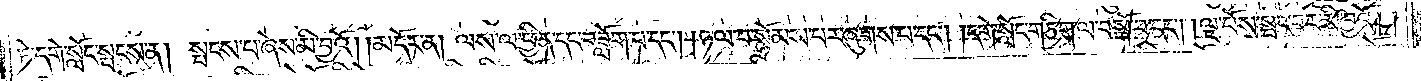ཏེ་དགེ་སློང་སྤངས་ན། སྤངས་པ་ཞེས་མི་བྱའོ། །མདོར་ན། ལས་ལ་ཕྱིན་དང་བཟློག་པ་དང༌། །ཉལ་བ་སྙེམས་པར་ཞུགས་པ་དང༌། །དགེ་སློང་གཅིག་ལ་བསྒོ་བ་དང༌། །ལྔ་པོས་སྤང་བར་མི་བྱའོ། །
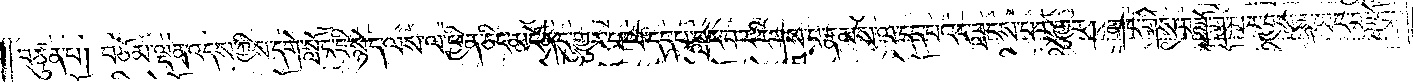བཙུན་པ། བཅོམ་ལྡན་འདས་ཀྱིས་དགེ་སློང་ཇི་སྙེད་ལས་ལ་ཕྱིན་ཅིང་མངོན་དུ་གྱུར་པ་ལ་དད་པ་བླང་བར་རིགས་པར་རྣམས་ལ་དད་པའང་བླངས་པར་གྱུར། གང་གིས་བཟློག་པར་བྱས་ན་ཡང་བཟློག་
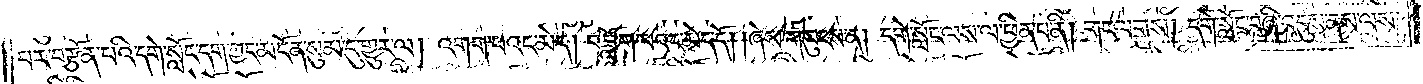པར་བརྩོན་པའི་དགེ་སློང་དག་ཀྱང་མངོན་གསུམ་དུ་གྱུར་ལ། འགག་པའང་མེད། བཟློག་པའང་མེད་དོ། །ཞེས་གསུངས་ན། དགེ་སློང་ལས་ལ་ཕྱིན་པ་ནི། གང་ལགས། དགེ་སློང་བཞི་འདུས་ནས་ལས་
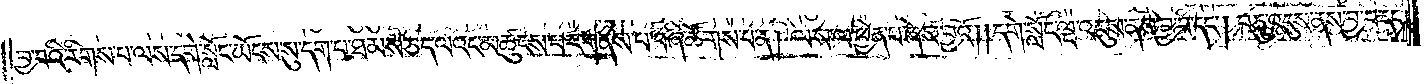བྱ་བའི་རིགས་པ་ལས་དགེ་སློང་ཡོངས་སུ་དག་པ་ཐམས་ཅད་ལའང་མཚུངས་པར་གནས་པ་བཞི་ཚོགས་པ་ན། ལས་ལ་ཕྱིན་པ་ཞེས་བྱའོ། །དགེ་སློང་ལྔ་འདུས་ནས་བྱ་བ་དང༌། བཅུ་འདུས་ནས་བྱ་བ་དང༌།
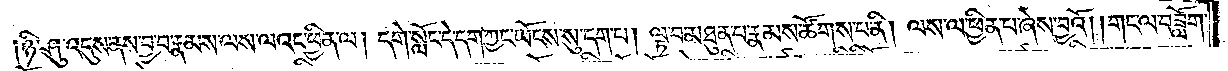ཉི་ཤུ་འདུས་ནས་བྱ་བ་རྣམས་ལས་ལའང་ཕྱིན་ལ། དགེ་སློང་དེ་དག་ཀྱང་ཡོངས་སུ་དག་པ། ལྟ་བ་མཐུན་པ་རྣམས་ཚོགས་པ་ནི། ལས་ལ་ཕྱིན་པ་ཞེས་བྱའོ། །གང་ལ་བཟློག་
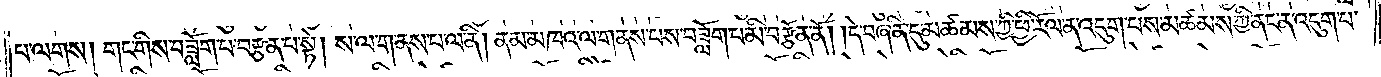པ་ལགས། གང་གིས་བཟློག་པ་བརྩན་པ་སྟེ། ས་ལ་གནས་པ་ལ་ནི། ནམ་མཁའ་ལ་གནས་པས་བཟློག་པ་མི་བརྩོན་ནོ། །དེ་བཞིན་དུ་མཚམས་ཀྱི་ཕྱི་རོལ་ན་འདུག་པས་མཚམས་ཀྱི་ནང་ན་འདུག་པ་
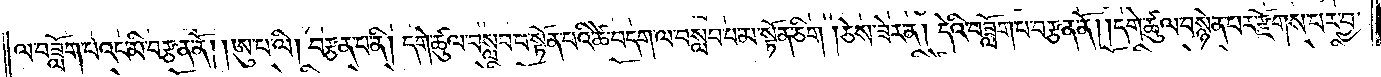ལ་བཟློག་པའང་མི་བརྩན་ནོ། །ཨུ་པ་ལི། བརྩན་པ་ནི། དགེ་ཚུལ་བསླབ་པ་སྟོན་པའི་ཚེ་བདག་ལ་བསླབ་པ་མ་སྟོན་ཅིག །ཅེས་ཟེར་ན། དེའི་བཟློག་པ་བརྩན་ནོ། །དགེ་ཚུལ་བསྙེན་པར་རྫོགས་པར་བྱ་
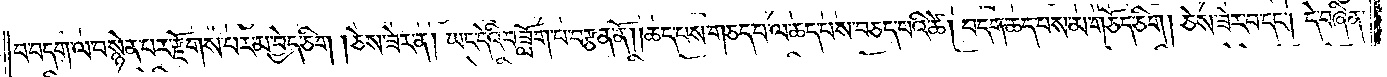བ་བདག་ལ་བསྙེན་པར་རྫོགས་པར་མ་བྱེད་ཅིག །ཅེས་ཟེར་ན། ཡང་དེའི་བཟློག་པ་བརྩན་ནོ། །ཆད་པས་གཅད་པ་ལ་ཆད་པས་བཅད་པའི་ཚེ། བདག་ཆད་པས་མ་གཅོད་ཅིག། ཅེས་ཟེར་བ་དང༌། དེ་བཞིན་
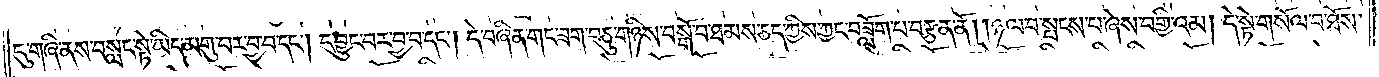དུ་གཞི་ནས་བསླང་སྟེ་ཡིད་མགུ་བར་བྱ་བ་དང༌། དབྱུང་བར་བྱ་བ་དང༌། དེ་བཞིན་གང་ཟག་བཅུ་གཉིས་བསྒོ་བ་ཐམས་ཅད་ཀྱིས་ཀྱང་བཟློག་པ་བརྩན་ནོ། །ཉལ་བ་སྤངས་པ་ཞེས་བགྱིའམ། དེ་སྟེ་གསོལ་བ་ཐོས་
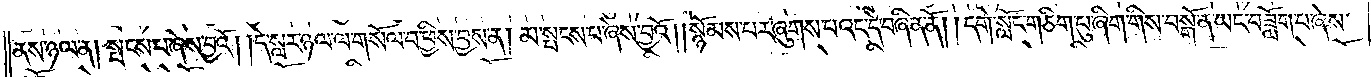ནས་ཉལ་ན། སྤངས་པ་ཞེས་བྱའོ། །དེ་སླར་ཉལ་ལ་གསོལ་བ་ཕྱིས་བྱས་ན། མ་སྤངས་པ་ཞེས་བྱའོ། །སྙོམས་པར་ཞུགས་པའང་དེ་བཞིན་ནོ། །དགེ་སློང་གཅིག་པུ་ཞིག་གིས་བསྒོ་ན་ཡང་བཟློག་པ་ཞེས་
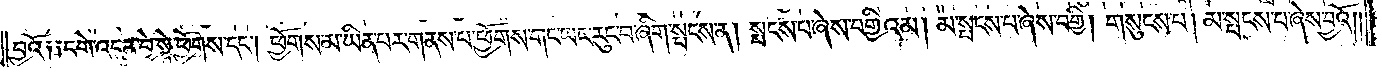བྱའོ༑ ༑དགེ་འདུན་བྱེ་སྟེ་ཕྱོགས་དང༌། ཕྱོགས་མ་ཡིན་པར་གནས་པ་ཕྱོགས་གང་ཡང་རུང་བ་ཞིག་སྤངས་ན། སྤངས་པ་ཞེས་བགྱིའམ། མ་སྤངས་པ་ཞེས་བགྱི། གསུངས་པ། མ་སྤངས་པ་ཞེས་བྱའོ༎
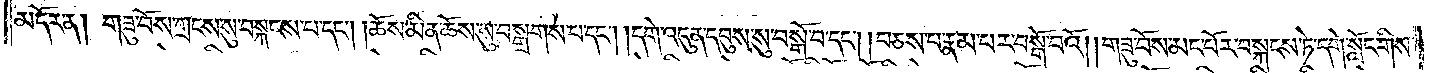མདོར་ན། གཟུ་བོས་གྲངས་སུ་བསྐངས་པ་དང༌། །ཆོས་མིན་ཆོས་སུ་བསྒྲགས་པ་དང༌། །དགེ་འདུན་དབུས་སུ་བསྒོ་བ་དང༌། །བཅས་པ་རྣམ་པར་བསྒོ་བའོ། །གཟུ་བོས་མང་པོར་བསྐངས་ཏེ་དགེ་སློང་གིས་
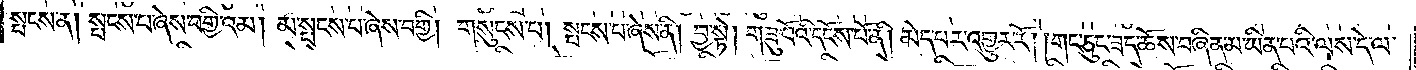སྤངས་ན། སྤངས་པ་ཞེས་བགྱིའམ། མ་སྤངས་པ་ཞེས་བགྱི། གསུངས་པ། སྤངས་པ་ཞེས་ནི། བྱ་སྟེ། གཟུ་བོའི་དངོས་པོ་ནི། མེད་པར་འགྱུར་རོ། །གང་ཅུང་ཟད་ཆོས་བཞིན་མ་ཡིན་པའི་ལས་དེ་ལ་
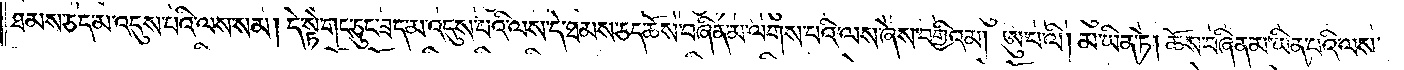ཐམས་ཅད་མ་འདུས་པའི་ལས་སམ། དེ་སྟེ་གང་ཅུང་མ་འདུས་པའི་ལས་དེ་ཐམས་ཅད་ཆོས་བཞིན་མ་ལགས་པའི་ལས་ཞེས་བགྱིའམ། ཨུ་པ་ལི། མ་ཡིན་ཏེ། ཆོས་བཞིན་མ་ཡིན་པའི་ལས་
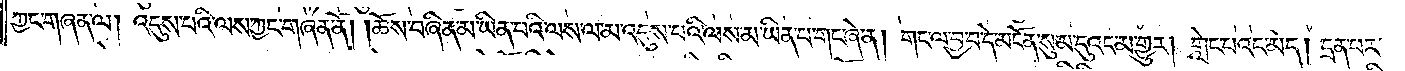ཀྱང་གཞན་ལ། འདུས་པའི་ལས་ཀྱང་གཞན་ནོ། །ཆོས་བཞིན་མ་ཡིན་པའི་ལས་ལམ་འདུས་པའི་ལས་མ་ཡིན་པ་གང་ཞེ་ན། གང་ལ་བྱ་བ་དེ་མངོན་སུམ་དུའང་མ་གྱུར། གླེང་པའང་མེད། དྲན་པར་
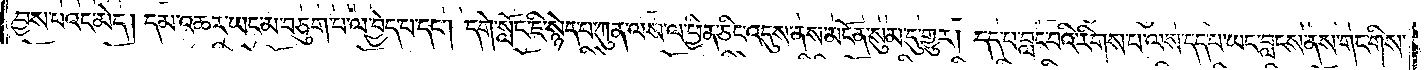བྱས་པའང་མེད། དམ་འཆར་ཡང་མ་བཅུག་པ་ལ་བྱེད་པ་དང༌། དགེ་སློང་ཇི་སྙེད་པ་ཀུན་ལས་ལ་ཕྱིན་ཅིང་འདུས་ནས་མངོན་སུམ་དུ་གྱུར། དད་པ་བླང་བའི་རིགས་པ་ལས་དད་པ་ཡང་བླངས་ནས་གང་གིས་
